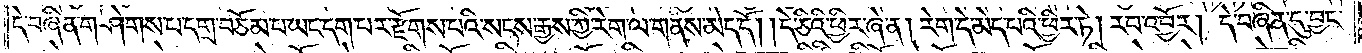དེ་བཞིན་གཤེགས་པ་དགྲ་བཅོམ་པ་ཡང་དག་པར་རྫོགས་པའི་སངས་རྒྱས་ཀྱི་རེག་ལ་གནས་མེད་དོ། །དེ་ཅིའི་ཕྱིར་ཞེ་ན། རེག་དེ་མེད་པའི་ཕྱིར་ཏེ། རབ་འབྱོར། དེ་བཞིན་དུ་བྱང་
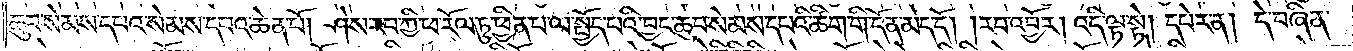ཆུབ་སེམས་དཔའ་སེམས་དཔའ་ཆེན་པོ། ཤེས་རབ་ཀྱི་ཕ་རོལ་ཏུ་ཕྱིན་པ་ལ་སྤྱོད་པའི་བྱང་ཆུབ་སེམས་དཔའི་ཚིག་གི་དོན་མེད་དོ། །རབ་འབྱོར། འདི་ལྟ་སྟེ། དཔེར་ན། དེ་བཞིན་
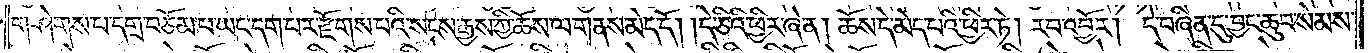གཤེགས་པ་དགྲ་བཅོམ་པ་ཡང་དག་པར་རྫོགས་པའི་སངས་རྒྱས་ཀྱི་ཆོས་ལ་གནས་མེད་དོ། །དེ་ཅིའི་ཕྱིར་ཞེ་ན། ཆོས་དེ་མེད་པའི་ཕྱིར་ཏེ། རབ་འབྱོར། དེ་བཞིན་དུ་བྱང་ཆུབ་སེམས་
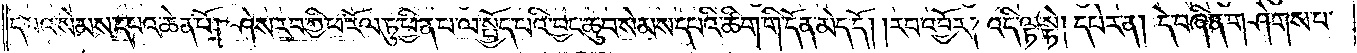དཔའ་སེམས་དཔའ་ཆེན་པོ། ཤེས་རབ་ཀྱི་ཕ་རོལ་ཏུ་ཕྱིན་པ་ལ་སྤྱོད་པའི་བྱང་ཆུབ་སེམས་དཔའི་ཚིག་གི་དོན་མེད་དོ། །རབ་འབྱོར། འདི་ལྟ་སྟེ། དཔེར་ན། དེ་བཞིན་གཤེགས་པ་
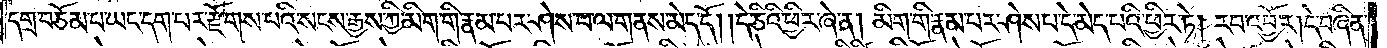དགྲ་བཅོམ་པ་ཡང་དག་པར་རྫོགས་པའི་སངས་རྒྱས་ཀྱི་མིག་གི་རྣམ་པར་ཤེས་པ་ལ་གནས་མེད་དོ། །དེ་ཅིའི་ཕྱིར་ཞེ་ན། མིག་གི་རྣམ་པར་ཤེས་པ་དེ་མེད་པའི་ཕྱིར་ཏེ། རབ་འབྱོར། དེ་བཞིན་
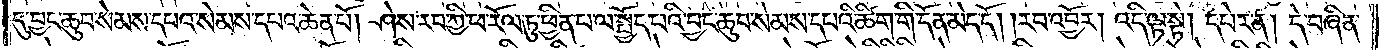དུ་བྱང་ཆུབ་སེམས་དཔའ་སེམས་དཔའ་ཆེན་པོ། ཤེས་རབ་ཀྱི་ཕ་རོལ་ཏུ་ཕྱིན་པ་ལ་སྤྱོད་པའི་བྱང་ཆུབ་སེམས་དཔའི་ཚིག་གི་དོན་མེད་དོ། །རབ་འབྱོར། འདི་ལྟ་སྟེ། དཔེར་ན། དེ་བཞིན་
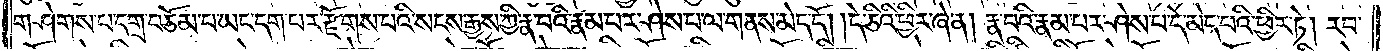གཤེགས་པ་དགྲ་བཅོམ་པ་ཡང་དག་པར་རྫོགས་པའི་སངས་རྒྱས་ཀྱི་རྣ་བའི་རྣམ་པར་ཤེས་པ་ལ་གནས་མེད་དོ། །དེ་ཅིའི་ཕྱིར་ཞེ་ན། རྣ་བའི་རྣམ་པར་ཤེས་པ་དེ་མེད་པའི་ཕྱིར་ཏེ། རབ་
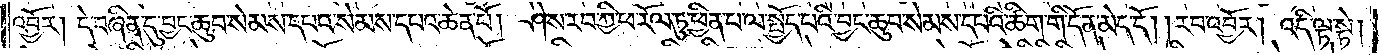འབྱོར། དེ་བཞིན་དུ་བྱང་ཆུབ་སེམས་དཔའ་སེམས་དཔའ་ཆེན་པོ། ཤེས་རབ་ཀྱི་ཕ་རོལ་ཏུ་ཕྱིན་པ་ལ་སྤྱོད་པའི་བྱང་ཆུབ་སེམས་དཔའི་ཚིག་གི་དོན་མེད་དོ། །རབ་འབྱོར། འདི་ལྟ་སྟེ།
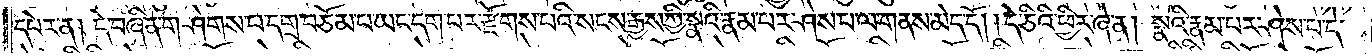དཔེར་ན། དེ་བཞིན་གཤེགས་པ་དགྲ་བཅོམ་པ་ཡང་དག་པར་རྫོགས་པའི་སངས་རྒྱས་ཀྱི་སྣའི་རྣམ་པར་ཤེས་པ་ལ་གནས་མེད་དོ། །དེ་ཅིའི་ཕྱིར་ཞེ་ན། སྣའི་རྣམ་པར་ཤེས་པ་དེ་
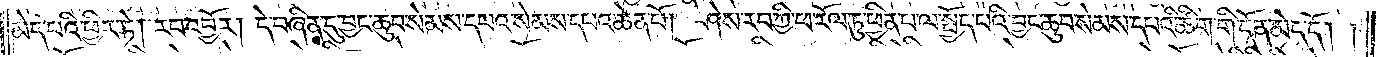མེད་པའི་ཕྱིར་ཏེ། རབ་འབྱོར། དེ་བཞིན་དུ་བྱང་ཆུབ་སེམས་དཔའ་སེམས་དཔའ་ཆེན་པོ། ཤེས་རབ་ཀྱི་ཕ་རོལ་ཏུ་ཕྱིན་པ་ལ་སྤྱོད་པའི་བྱང་ཆུབ་སེམས་དཔའི་ཚིག་གི་དོན་མེད་དོ། །
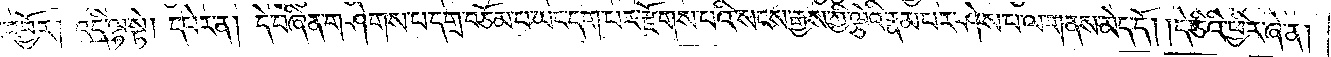འབྱོར། འདི་ལྟ་སྟེ། དཔེར་ན། དེ་བཞིན་གཤེགས་པ་དགྲ་བཅོམ་པ་ཡང་དག་པར་རྫོགས་པའི་སངས་རྒྱས་ཀྱི་ལྕེའི་རྣམ་པར་ཤེས་པ་ལ་གནས་མེད་དོ། །དེ་ཅིའི་ཕྱིར་ཞེ་ན།
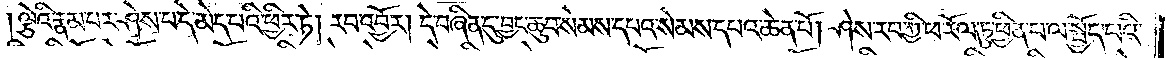ལྕེའི་རྣམ་པར་ཤེས་པ་དེ་མེད་པའི་ཕྱིར་ཏེ། རབ་འབྱོར། དེ་བཞིན་དུ་བྱང་ཆུབ་སེམས་དཔའ་སེམས་དཔའ་ཆེན་པོ། ཤེས་རབ་ཀྱི་ཕ་རོལ་ཏུ་ཕྱིན་པ་ལ་སྤྱོད་པའི་
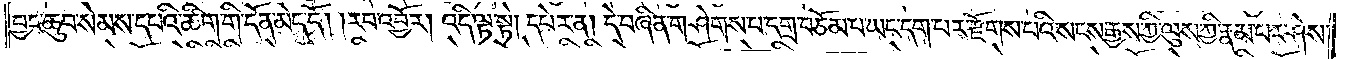བྱང་ཆུབ་སེམས་དཔའི་ཚིག་གི་དོན་མེད་དོ། །རབ་འབྱོར། འདི་ལྟ་སྟེ། དཔེར་ན། དེ་བཞིན་གཤེགས་པ་དགྲ་བཅོམ་པ་ཡང་དག་པར་རྫོགས་པའི་སངས་རྒྱས་ཀྱི་ལུས་ཀྱི་རྣམ་པར་ཤེས་
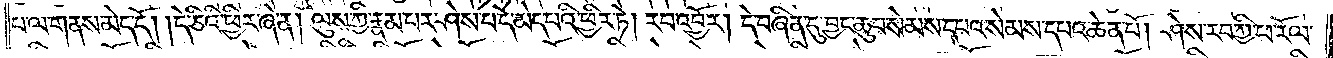པ་ལ་གནས་མེད་དོ། །དེ་ཅིའི་ཕྱིར་ཞེ་ན། ལུས་ཀྱི་རྣམ་པར་ཤེས་པ་དེ་མེད་པའི་ཕྱིར་ཏེ། རབ་འབྱོར། དེ་བཞིན་དུ་བྱང་ཆུབ་སེམས་དཔའ་སེམས་དཔའ་ཆེན་པོ། ཤེས་རབ་ཀྱི་ཕ་རོལ་
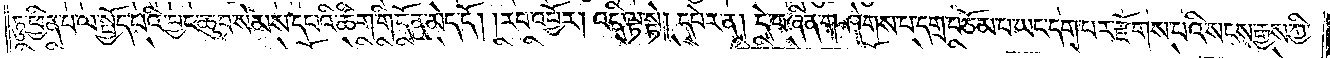ཏུ་ཕྱིན་པ་ལ་སྤྱོད་པའི་བྱང་ཆུབ་སེམས་དཔའི་ཚིག་གི་དོན་མེད་དོ། །རབ་འབྱོར། འདི་ལྟ་སྟེ། དཔེར་ན། དེ་བཞིན་གཤེགས་པ་དགྲ་བཅོམ་པ་ཡང་དག་པར་རྫོགས་པའི་སངས་རྒྱས་ཀྱི་
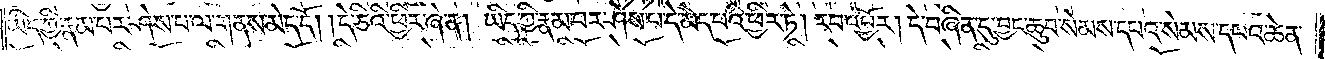ཡིད་ཀྱི་རྣམ་པར་ཤེས་པ་ལ་གནས་མེད་དོ། །དེ་ཅིའི་ཕྱིར་ཞེ་ན། ཡིད་ཀྱི་རྣམ་པར་ཤེས་པ་དེ་མེད་པའི་ཕྱིར་ཏེ། རབ་འབྱོར། དེ་བཞིན་དུ་བྱང་ཆུབ་སེམས་དཔའ་སེམས་དཔའ་ཆེན་
